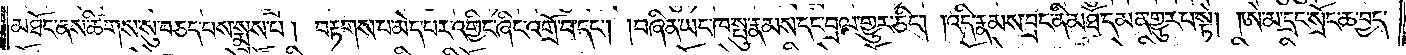མཐོང་ནས་ཚིགས་སུ་བཅད་པས་སྨྲས་པ། བརྟགས་པ་མེད་པར་འགྱིང་ཞིང་འགྲོ་བ་དང༌། །བཞིན་ཡང་ཁ་སྤུ་རྣམས་དང་བྲལ་གྱུར་ཅིང༌། །འདི་རྣམས་བྲང་ནི་མཐོ་དམན་གྱུར་པ་སྟེ། །ཨེ་མ་དྲང་སྲོང་ཆ་བྱད་
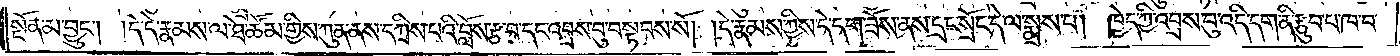སྔོན་མ་བྱུང༌། །དེ་དེ་རྣམས་ལ་ཐེ་ཚོམ་གྱིས་ཀུན་ནས་དཀྲིས་པའི་བློས་རྩ་བ་དང་འབྲས་བུ་བསྟབས་སོ། །དེ་རྣམས་ཀྱིས་དེ་དག་ཟོས་ནས་དྲང་སྲོང་དེ་ལ་སྨྲས་པ། ཁྱེད་ཀྱི་འབྲས་བུ་འདི་དག་ནི་རྩུབ་པ་ཁ་བ་
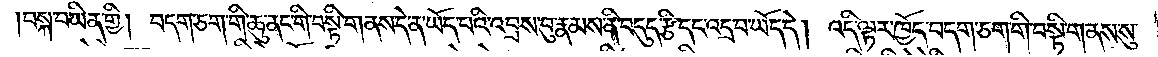བསྐ་བ་ཡིན་གྱི། བདག་ཅག་གི་ཆུ་ནང་གི་བསྟི་གནས་དེ་ན་ཡོད་པའི་འབྲས་བུ་རྣམས་ནི་བདུད་རྩི་དང་འདྲ་བ་ཡོད་དེ། འདི་ལྟར་ཁྱོད་བདག་ཅག་གི་བསྟི་གནས་སུ་
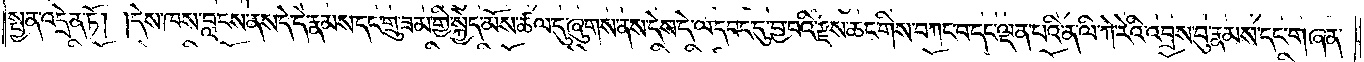སྤྱན་འདྲེན་ཏོ། །དེས་ཁས་བླངས་ནས་དེ་དེ་རྣམས་དང་གྲུ་ཟམ་གྱི་སྐྱེད་མོས་ཚལ་དུ་ཞུགས་ནས་དེས་དེ་ལ་དབང་དུ་བྱ་བའི་རྫས་ཆང་གིས་བཀང་བ་དང་ལྡན་པའི་ན་ལི་ཀེ་རེའི་འབྲས་བུ་རྣམས་དང་གཞན་
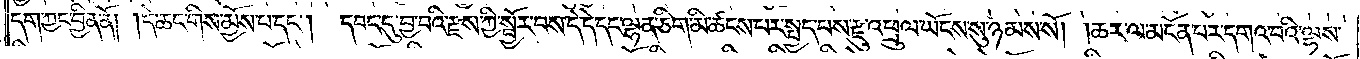དག་ཀྱང་བྱིན་ནོ། །དེ་ཆང་གིས་མྱོས་པ་དང༌། དབང་དུ་བྱ་བའི་རྫས་ཀྱི་སྦྱོར་བས་དེ་དེ་དང་ལྷན་ཅིག་མི་ཚངས་པར་སྤྱད་པས་རྫུ་འཕྲུལ་ཡོངས་སུ་ཉམས་སོ། །ཆར་ལ་མངོན་པར་དགའ་བའི་ལྷས་
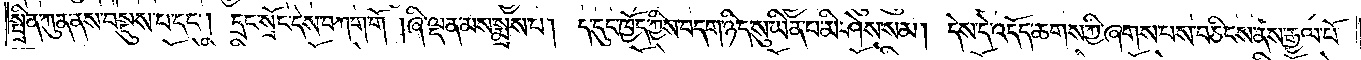སྤྲིན་ཀུན་ནས་བསྡུས་པ་དང༌། དྲང་སྲོང་དེས་བཀག་གོ །ཞི་ལྡན་མས་སྨྲས་པ། ད་དུང་ཁྱོད་ཀྱིས་བདག་ཉིད་སུ་ཡིན་པ་མི་ཤེས་སམ། དེས་དེ་འདོད་ཆགས་ཀྱི་ཞགས་པས་བཅིངས་ནས་རྒྱལ་པོ་
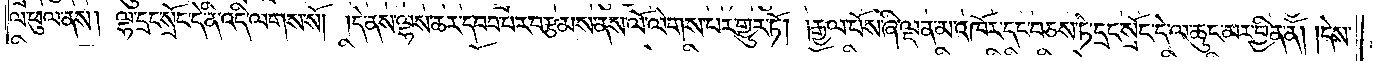ལ་ཕུལ་ནས། ལྷ་དྲང་སྲོང་དེ་ནི་འདི་ལགས་སོ། །དེ་ནས་ལྷས་ཆར་དབབ་པར་བརྩམས་ནས་ལོ་ལེགས་པར་གྱུར་ཏོ། །རྒྱལ་པོས་ཞི་ལྡན་མ་འཁོར་དང་བཅས་ཏེ་དྲང་སྲོང་དེ་ལ་ཆུང་མར་བྱིན་ནོ། །དེས་
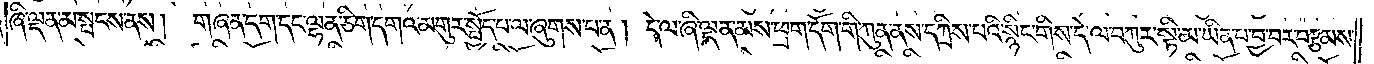ཞི་ལྡན་མ་སྤངས་ནས། གཞན་དག་དང་ལྷན་ཅིག་དགའ་མགུར་སྤྱོད་པ་ལ་ཞུགས་པ་ན། དེ་ལ་ཞི་ལྡན་མས་ཕྲག་དོག་གི་ཀུན་ནས་དཀྲིས་པའི་སྙིང་གིས་དེ་ལ་བཀུར་སྟི་མ་ཡིན་པ་བྱ་བར་བརྩམས་
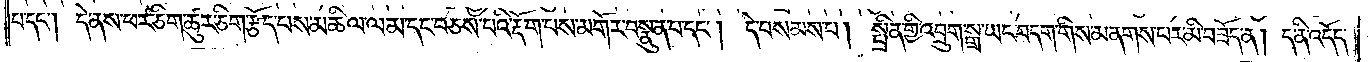པ་དང༌། དེ་ནས་ཕར་ཅིག་ཚུར་ཅིག་རྩོད་པས་མཆིལ་ལྷམ་དང་བཅས་པའི་རྡོག་པས་མགོར་བསྣུན་པ་དང༌། དེ་བསམས་པ། སྤྲིན་གྱི་འབྲུག་སྒྲ་ཡང་བདག་གིས་མནགས་པར་མི་བཟོད་ན། ད་ནི་འདོད་
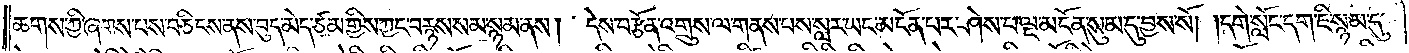ཆགས་ཀྱི་ཞགས་པས་བཅིངས་ནས་བུད་མེད་ཙམ་གྱིས་ཀྱང་བརྙས་སམ་སྙམ་ནས། དེས་བརྩོན་འགྲུས་ལ་གནས་པས་སླར་ཡང་མངོན་པར་ཤེས་པ་ལྔ་མངོན་སུམ་དུ་བྱས་སོ། །དགེ་སློང་དག་ཇི་སྙམ་དུ་
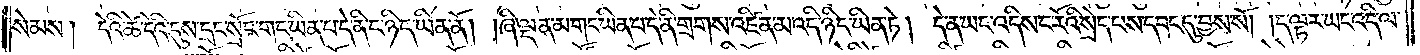སེམས། དེའི་ཚེ་དེའི་དུས་དྲང་སྲོང་གང་ཡིན་པ་དེ་ནི་ང་ཉིད་ཡིན་ནོ། །ཞི་ལྡན་མ་གང་ཡིན་པ་དེ་ནི་གྲགས་འཛིན་མ་འདི་ཉིད་ཡིན་ཏེ། དེ་ན་ཡང་འདིས་ང་རོའི་སྲེད་པས་དབང་དུ་བྱས་སོ། །ད་ལྟར་ཡང་འདི་ལ་
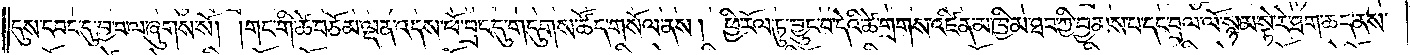དུས་དབང་དུ་བྱ་བ་ལ་ཞུགས་སོ། །གང་གི་ཚེ་བཅོམ་ལྡན་འདས་ཕོ་བྲང་དུ་གདུགས་ཚོད་གསོལ་ནས། ཕྱི་རོལ་ཏུ་བྱུང་བ་དེའི་ཚེ་གྲགས་འཛིན་མ་ཁྱིམ་ཐབ་ཀྱི་བྱམས་པ་དང་བྲལ་ལོ་སྙམ་སྟེ་རེ་ཐག་ཆད་ནས་
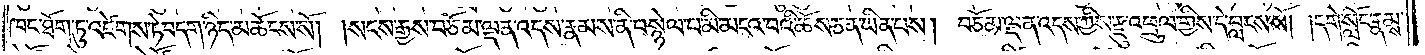ཁང་ཐོག་ཏུ་འཛེགས་ཏེ་བདག་ཉིད་མཆོངས་སོ། །སངས་རྒྱས་བཅོམ་ལྡན་འདས་རྣམས་ནི་བསྙེལ་པ་མི་མངའ་བའི་ཆོས་ཅན་ཡིན་པས། བཅོམ་ལྡན་འདས་ཀྱིས་རྫུ་འཕྲུལ་གྱིས་དེ་བླངས་སོ། །དགེ་སློང་རྣམས་
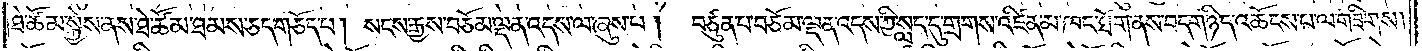ཐེ་ཚོམ་སྐྱེས་ནས་ཐེ་ཚོམ་ཐམས་ཅད་གཅོད་པ། སངས་རྒྱས་བཅོམ་ལྡན་འདས་ལ་ཞུས་པ། བཙུན་པ་བཅོམ་ལྡན་འདས་ཀྱི་སླད་དུ་གྲགས་འཛིན་མ་ཁང་ཐོག་ནས་བདག་ཉིད་འཆོངས་པ་ལ་གཟིགས།
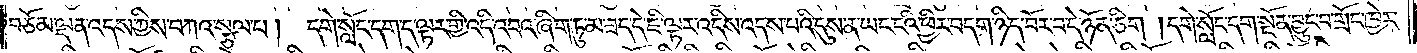བཅོམ་ལྡན་འདས་ཀྱིས་བཀའ་སྩལ་པ། དགེ་སློང་དག་དེ་ལྟར་གྱི་འདི་འབའ་ཞིག་ཏུ་མ་ཟད་དེ་ཇི་ལྟར་འདིས་འདས་པའི་དུས་ན་ཡང་ངའི་ཕྱིར་བདག་ཉིད་བོར་བ་དེ་ཉོན་ཅིག །དགེ་སློང་དག་སྔོན་བྱུང་བ་གྲོང་ཁྱེར་
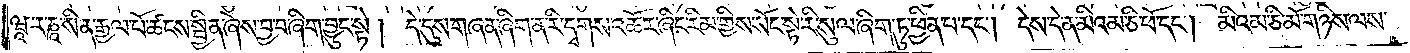ཝཱ་ར་ཎཱ་སི་ན་རྒྱལ་པོ་ཚངས་སྦྱིན་ཞེས་བྱ་བ་ཞིག་བྱུང་སྟེ། དེ་དུས་གཞན་ཞིག་ན་རི་དྭགས་འཆོར་ཞིང་རིམ་གྱིས་སོང་སྟེ་རི་སུལ་ཞིག་ཏུ་ཕྱིན་པ་དང༌། དེས་དེ་ན་མིའམ་ཅི་ཕོ་དང༌། མིའམ་ཅི་མོ་གཉིས་ལས་
